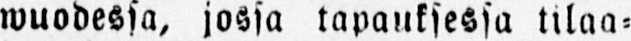wuodessa, jossa tapauksessa tilaa-
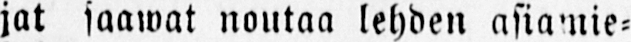jat saawat noutaa lehden asiamie-
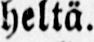heltä.
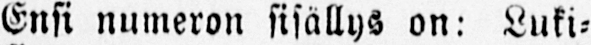Ensi numeron sisällys on: Luki-
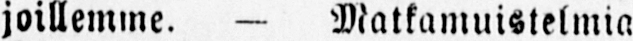joillemme. — Matkamuistelmia
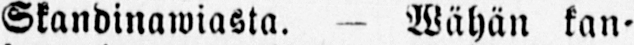Skandinawiasta. — Wähän kan-
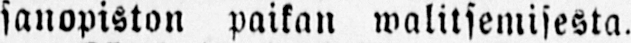sanopiston paikan walitsemisesta.
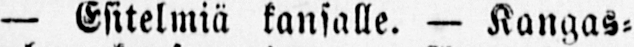— Esitelmiä kansalle. — Kangas-
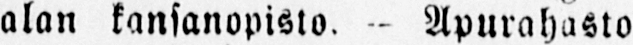alan kansanopisto. - Apurahasto
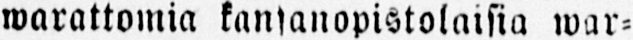warattomia kansanopistolaisia war-
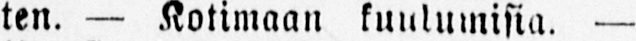ten. — Kotimaan kuulumisia. —
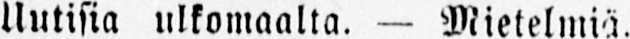Uutisia ulkomaalta. — Mietelmiä.
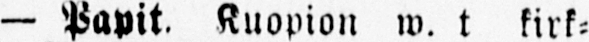— Papit. Kuopion w. t kirk-
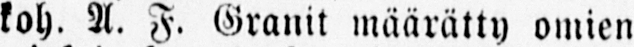koh. A. F. Granit määrätty omien
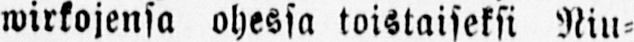wirkojensa ohessa toistaiseksi Niu-
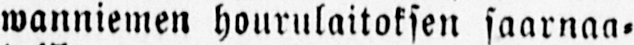wanniemen hourulaitoksen saarnaa-
